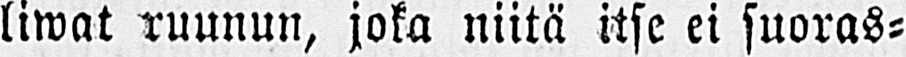liwat ruunun, joka niitä itse ei suoras-
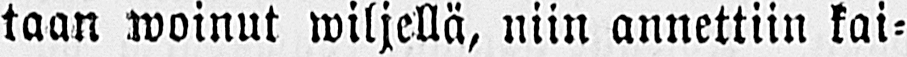taan woinut wiljellä, niin annettiin kai-
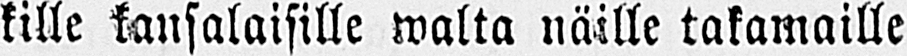kille kansalaisille walta näille takamaille
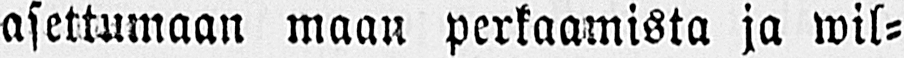asettumaan maan perkaamista ja wil-
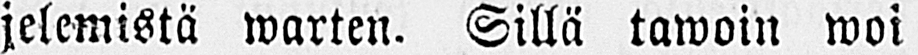jelemistä warten. Sillä tawoin woi
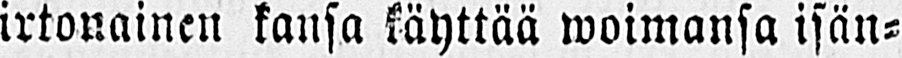irtonainen kansa käyttää woimansa isän-
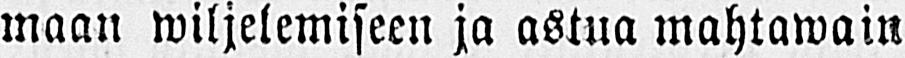maan wiljelemiseen ja astua mahtawain
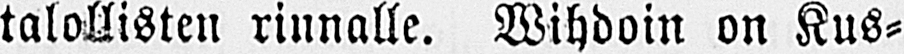talollisten rinnalle. Wihdoin on Kus-
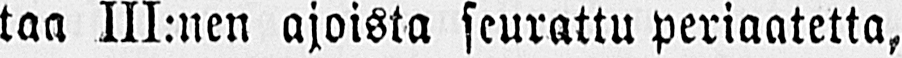taa III:nen ajoista seurattu periaatetta,
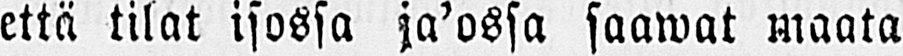että tilat isossa ja’ossa saawat maata
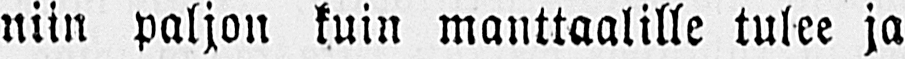niin paljon kuin manttaalille tulee ja
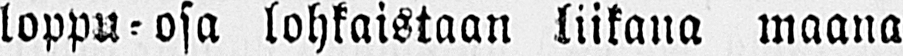loppu-osa lohkaistaan liikana maana
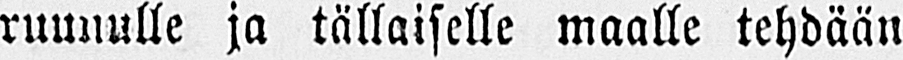ruunulle ja tällaiselle maalle tehdään
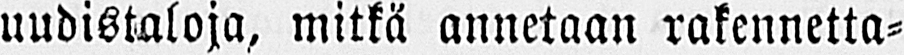uudistaloja, mitkä annetaan rakennetta-
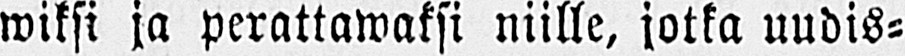wiksi ja perattawaksi niille, jotka uudis-
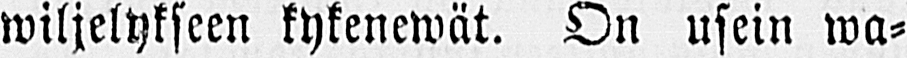wiljelykseen kykenewät. On usein wa-
